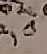༢
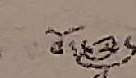བོད་ཟླ་
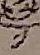༡
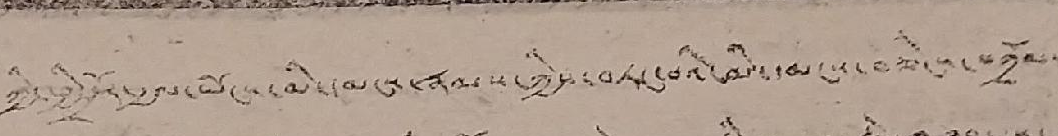ཀྱི་སྤྱི་དོན་རྒྱལ་ཡོང་མི་དམངས་རྣམས་ཀྱིས་བཏང་བའི་མི་དམངས་བཅིངས་བཀྲོལ་
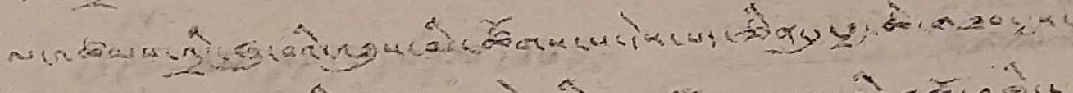ལ་འཚམས་འདྲི་ཞུ་བའི་འཐུས་མི་ཚོགས་པ་དེས་པད་ཅིང་དུ་རྒྱ་ཆེ་འཐབ་བྱས་
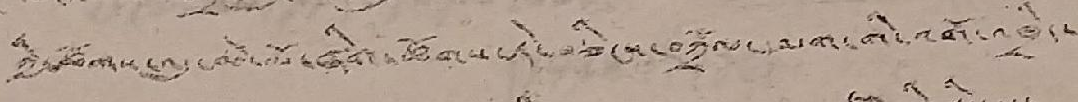ཀྱི་ཚོགས་འདུ་ཆེན་པོ་ཞིག་ཚོགས་ཏེ་བཅིངས་བཀྲོལ་དམག་གི་འགོ་འཁྲིད་
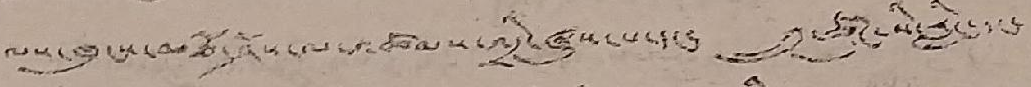ལས་ཁུངས་མཐོ་ཤོས་ལ་མཚམས་འདྲི་ཞུས་པ་དང་ ཀྲུ་ཙུཊ་སི་རླིང་དང་
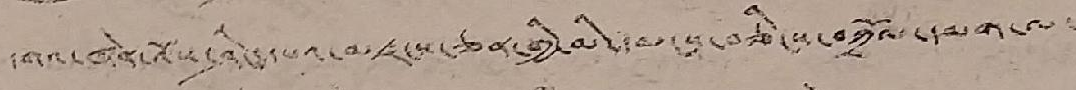དགའ་ཞེན་འོས་ཤིང་དཔའ་མཛངས་ཅན་གྱི་མི་དམངས་བཅིངས་བཀྲོལ་དམག་ལ་
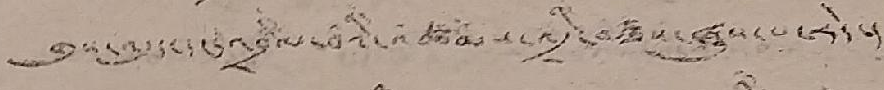གུས་འདུད་དང་འབྲེལ་བའི་འཚམས་འདྲི་བཅས་ཞུས་པ་རེད་།
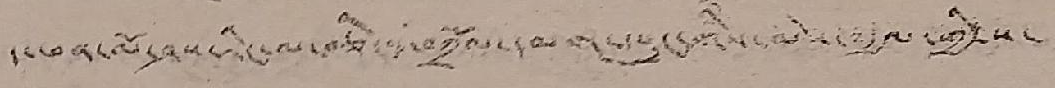ད་ཕན་ལོ་ཤས་རིང་ལ་བཅིངས་བཀྲོལ་དམག་དཔུང་གིས་མེས་༸རྒྱལ་གྱི་ས་
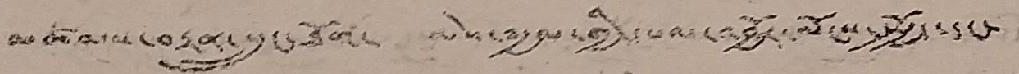མཚམས་བརྟན་སྲུང་ཐོག་ མེས་༸རྒྱལ་གྱི་དཔལ་འབྱོར་ལོངས་སྤྱོད་དང་
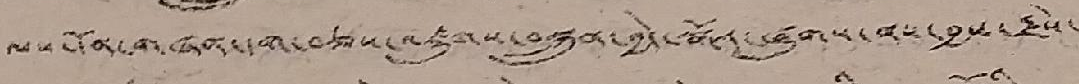ལས་དོན་གཞན་དག་བཅས་འཛུགས་བསྐྲུན་བྱེད་སྒོར་ཞུགས་ནས་བྱས་རྗེས་
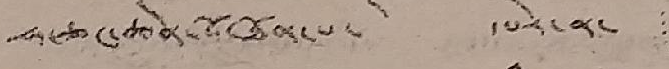ཧ་ཅང་ཆེན་པོ་ཐོན་པ་ དཔེར་ན་
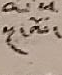སྔ་ལོ་
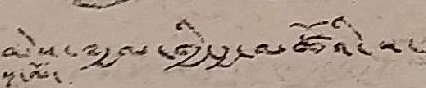མེས་༸རྒྱལ་གྱི་རྒྱ་མཚོའི་ས་
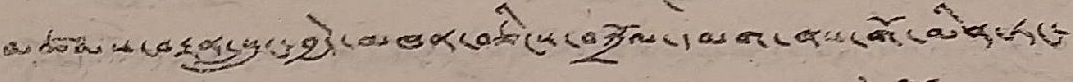མཚམས་བརྟན་སྲུང་བྱེད་མཁན་བཅིངས་བཀྲོལ་དམག་ནས་གོ་མིན་ཏང་
